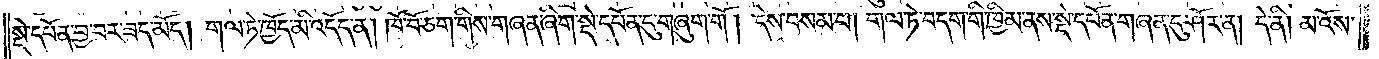སྡེ་དཔོན་བྱ་བར་ཟད་མོད། གལ་ཏེ་ཁྱོད་མི་འདོད་ན། ཁོ་བོ་ཅག་གིས་གཞན་ཞིག་སྡེ་དཔོན་དུ་གཞུག་གོ། དེས་བསམ་པ། གལ་ཏེ་བདག་གི་ཁྱིམ་ནས་སྡེ་དཔོན་གཞན་དུ་ཤོར་ན། དེ་ནི། མ་འོས་
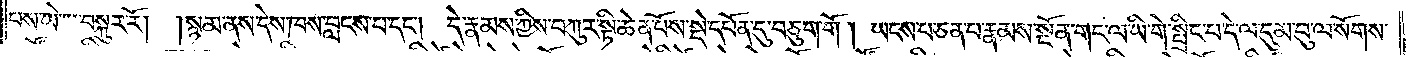པས་ཡེ་བསྐུར་རོ། །སྙམ་ནས་དེས་ཁས་བླངས་པ་དང༌། དེ་རྣམས་ཀྱིས་བཀུར་སྟི་ཆེན་པོས་སྡེ་དཔོན་དུ་བཅུག་གོ། ཡངས་པ་ཅན་པ་རྣམས་སྔོན་གང་ལ་ཡི་གེ་སྤྲིང་པ་དེ་ལ་དུམ་བུ་ལ་སོགས་
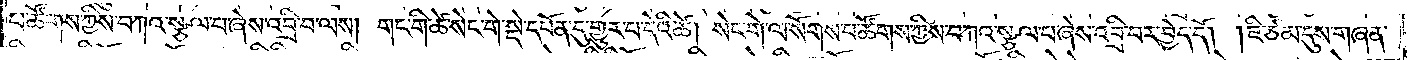པ་ཚོགས་ཀྱིས་བཀའ་སྩལ་པ་ཞེས་འབྲི་བ་ལས། གང་གི་ཚེ་སེང་གེ་སྡེ་དཔོན་དུ་གྱུར་པ་དེའི་ཚེ། སེང་གེ་ལ་སོགས་པ་ཚོགས་ཀྱིས་བཀའ་སྩལ་པ་ཞེས་འབྲི་བར་བྱེད་དོ། །ཇི་ཙམ་དུས་གཞན་
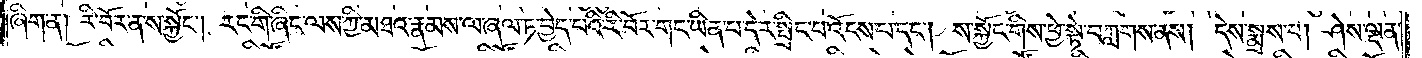ཞིག་ན། རི་བོར་ན་ས་སྐྱོང༌། རང་གི་ཞིང་ལས་ཀྱི་མཐའ་རྣམས་ལ་ཞལ་ཏ་བྱེད་པའི་རི་བོར་གང་ཡིན་པ་དེར་སྤྲིང་པ་འོངས་པ་དང༌། ས་སྐྱོང་གིས་ཕྱེ་སྟེ་བཀླགས་ནས། དེས་སྨྲས་པ། ཤེས་ལྡན་
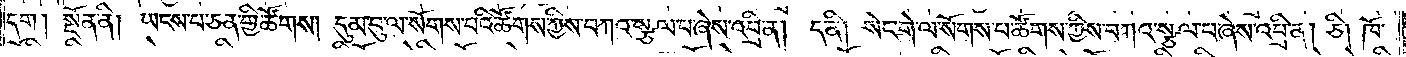དག། སྔོན་ནི། ཡངས་པ་ཅན་གྱི་ཚོགས། དུམ་བུ་ལ་སོགས་པའི་ཚོགས་ཀྱིས་བཀའ་སྩལ་པ་ཞེས་འབྲི་ན། ད་ནི། སེང་གེ་ལ་སོགས་པ་ཚོགས་ཀྱིས་བཀའ་སྩལ་པ་ཞེས་འབྲི་ན། ཅི། ཁོ་
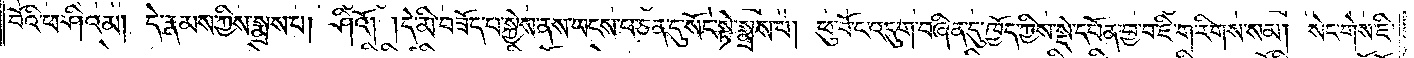བོའི་ཕ་ཤིའམ། དེ་རྣམས་ཀྱིས་སྨྲས་པ། ཤིའོ། །དེ་མི་བཟོད་པ་སྐྱེས་ནས་ཡངས་པ་ཅན་དུ་སོང་སྟེ་སྨྲས་པ། ཕུ་བོ་ང་འདུག་བཞིན་དུ་ཁྱོད་ཀྱིས་སྡེ་དཔོན་བྱ་བ་ཇི་ག་རིགས་སམ། སེང་གེས་ཇི་
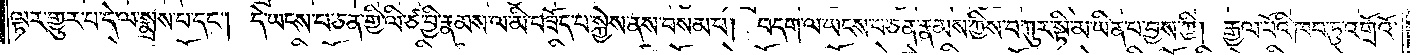ལྟར་གྱུར་པ་དེ་ལ་སྨྲས་པ་དང༌། དེ་ཡངས་པ་ཅན་གྱི་ལི་ཙ་བྱི་རྣམས་ལ་མི་བཟོད་པ་སྐྱེས་ནས་བསམ་པ། བདག་ལ་ཡངས་པ་ཅན་རྣམས་ཀྱིས་བཀུར་སྟི་མ་ཡིན་པ་བྱས་ཀྱི། རྒྱལ་པོའི་ཁབ་ཏུ་འགྲོའོ་
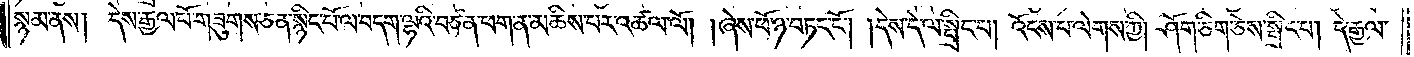སྙམ་ནས། དེས་རྒྱལ་པོ་གཟུགས་ཅན་སྙིང་པོ་ལ་བདག་ལྷའི་བཙན་ཕག་ན་མཆིས་པར་འཚལ་ལོ། །ཞེས་ཕོ་ཉ་བཏང་ངོ༌། །དེས་དེ་ལ་སྤྲིང་པ། འོངས་པ་ལེགས་ཀྱི། ཤོག་ཅིག་ཅེས་སྤྲིང་པ། དེ་རྒྱལ་
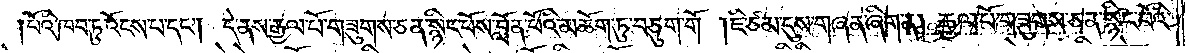པོའི་ཁབ་ཏུ་འོངས་པ་དང༌། དེ་ནས་རྒྱལ་པོ་གཟུགས་ཅན་སྙིང་པོས་བློན་པོའི་མཆོག་ཏུ་བཅུག་གོ །ཇི་ཙམ་དུས་གཞན་ཞིག་ན། རྒྱལ་པོ་གཟུགས་ཅན་སྙིང་པོའི་
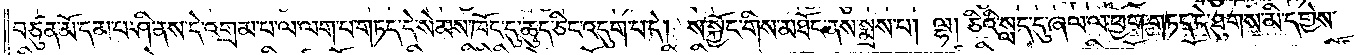བཙུན་མོ་དམ་པ་ཤི་ནས་དེ་འགྲམ་པ་ལ་ལག་པ་གཏད་དེ་སེམས་ཁོང་དུ་ཆུད་ཅིང་འདུག་པ་དེ། ས་སྐྱོང་གིས་མཐོང་ནས་སྨྲས་པ། ལྷ། ཅིའི་སླད་དུ་ཞལ་ལ་ཕྱག་གཏད་དེ་ཐུགས་མི་དགྱེས་
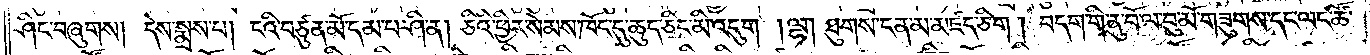ཤིང་བཞུགས། དེས་སྨྲས་པ། ངའི་བཙུན་མོ་དམ་པ་ཤི་ན། ཅིའི་ཕྱིར་སེམས་ཁོང་དུ་ཆུད་ཅིང་མི་འདུག །ལྷ། ཐུགས་ངན་མ་མཛད་ཅིག། བདག་གི་ནུ་བོ་ལ་བུ་མོ་གཟུགས་དང་ལང་ཚོ་
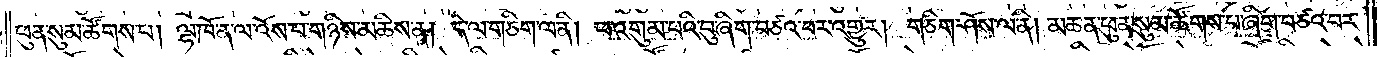ཕུན་སུམ་ཚོགས་པ། ལྷ་ཁོ་ན་ལ་འོས་པ་གཉིས་མཆིས་ན། དེ་ལ་གཅིག་ལ་ནི། ཕ་འགུམ་པའི་བུ་ཞིག་བཙའ་བར་འགྱུར། གཅིག་ཤོས་ལ་ནི། མཚན་ཕུན་སུམ་ཚོགས་པ་ཞིག་བཙའ་བར་
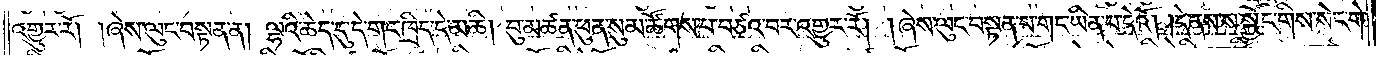འགྱུར་རོ། །ཞེས་ལུང་བསྟན་ན། ལྷའི་ཆེད་དུ་དེ་གང་ཁྲིད་དེ་མཆི། བུ་མཚན་ཕུན་སུམ་ཚོགས་པ་བཙའ་བར་འགྱུར་རོ། །ཞེས་ལུང་བསྟན་པ་གང་ཡིན་པ་དེའོ། །དེ་ནས་ས་སྐྱོང་གིས་སེང་གེ་
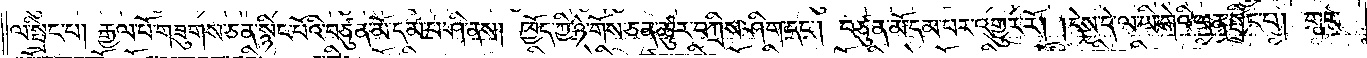ལ་སྤྲིང་བ། རྒྱལ་པོ་གཟུགས་ཅན་སྙིང་པོའི་བཙུན་མོ་དམ་པ་ཤི་ནས། ཁྱོད་ཀྱི་ཉེ་གོས་ཅན་ཚུར་བཀྲིས་ཤིག་དང༌། བཙུན་མོ་དམ་པར་འགྱུར་རོ། །དེས་དེ་ལ་ཡི་གེའི་ལན་སྤྲིང་པ། གར་
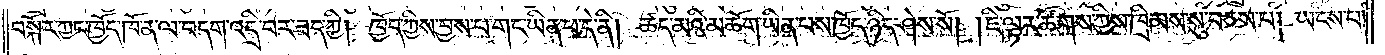བསྐོར་ཀྱང་ཁྱོད་ཁོ་ན་ལ་བདག་འདྲི་བར་ཟད་ཀྱི། ཁྱོད་ཀྱིས་བྱས་པ་གང་ཡིན་པ་དེ་ནི། ཚད་མའི་མཆོག་ཡིན་པས་ཁྱོད་ཉིད་ཤེས་སོ། །ཇི་ལྟར་ཚོགས་ཀྱིས་ཁྲིམས་སུ་བཅས་པ། ཡངས་པ་
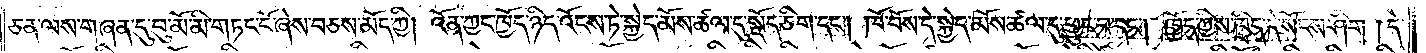ཅན་ལས་གཞན་དུ་བུ་མོ་མི་གཏང་ངོ་ཞེས་བཅས་མོད་ཀྱི། འོན་ཀྱང་ཁྱོད་ཉིད་འོངས་ཏེ་སྐྱེད་མོས་ཚལ་དུ་སྡོད་ཅིག་དང༌། ཁོ་བོས་དེ་སྐྱེད་མོས་ཚལ་དུ་ཕྱུང་བ་དང༌། ཁྱོད་ཀྱིས་ཁྲིད་དེ་སོངས་ཤིག །དེ་
